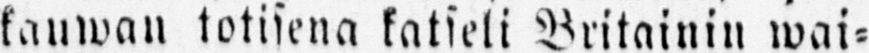kauwan totisena katseli Britainin wai-
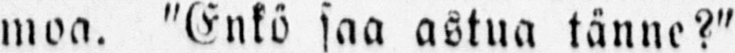moa. "Enkö saa astua tänne?"
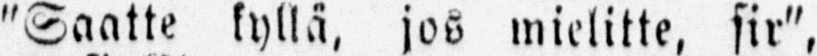"Saatte kyllä, jos mielitte, sir",
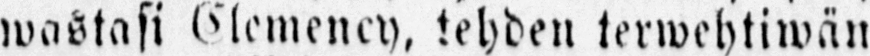wastasi Clemency, tehden terwehtiwän
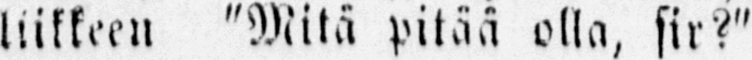liikkeen "Mitä pitää olla, sir?"
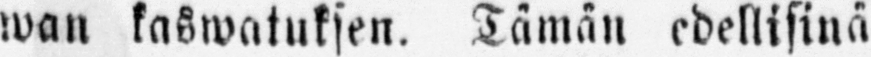wan kaswatuksen. Tämän edellisinä
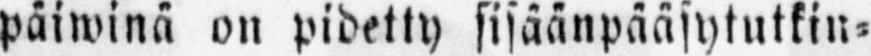päiwinä on pidetty sisäänpääsytutkin-
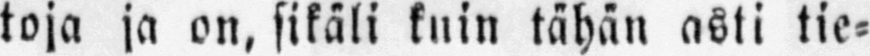toja ja on, sikäli kuin tähän asti tie-
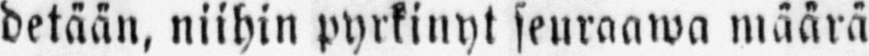detään, niihin pyrkinyt seuraawa määrä
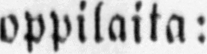oppilaita:
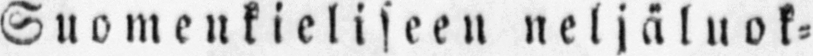Suomenkieliseen neljäluok-
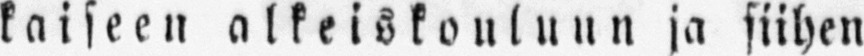kaiseen alkeiskouluun ja siihen
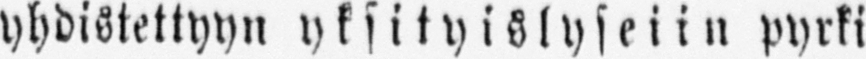yhdistettyyn yksityislyseiin pyrki
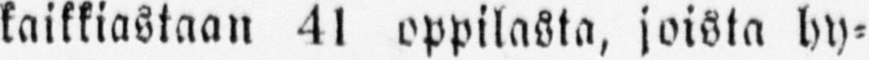kaikkiastaan 41 oppilasta, joista hy-
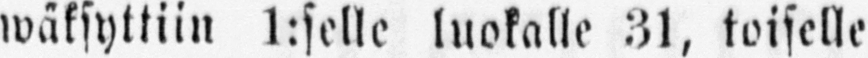wäksyttiin 1:sille luokalle 3l, toisille
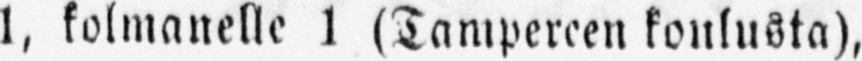1, kolmanelle l (Tampereen koulusta),
